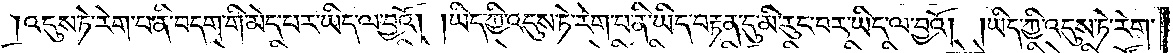འདུས་ཏེ་རེག་པ་ནི་བདག་གི་མེད་པར་ཡིད་ལ་བྱའོ། །ཡིད་ཀྱི་འདུས་ཏེ་རེག་པ་ནི་ཡིད་བརྟན་དུ་མི་རུང་བར་ཡིད་ལ་བྱའོ། །ཡིད་ཀྱི་འདུས་ཏེ་རེག་པ་
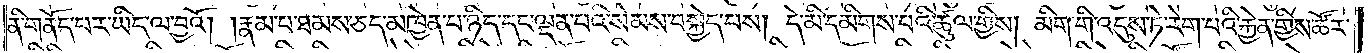ནི་གནོད་པར་ཡིད་ལ་བྱའོ། །རྣམ་པ་ཐམས་ཅད་མཁྱེན་པ་ཉིད་དང་ལྡན་པའི་སེམས་བསྐྱེད་པས། དེ་མི་དམིགས་པའི་ཚུལ་གྱིས། མིག་གི་འདུས་ཏེ་རེག་པའི་རྐྱེན་གྱིས་ཚོར་
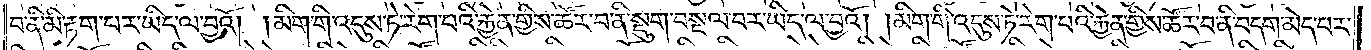བ་ནི་མི་རྟག་པར་ཡིད་ལ་བྱའོ། །མིག་གི་འདུས་ཏེ་རེག་པའི་རྐྱེན་གྱིས་ཚོར་བ་ནི་སྡུག་བསྔལ་བར་ཡིད་ལ་བྱའོ། །མིག་གི་འདུས་ཏེ་རེག་པའི་རྐྱེན་གྱིས་ཚོར་བ་ནི་བདག་མེད་པར་
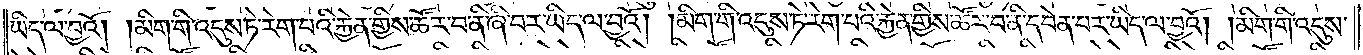ཡིད་ལ་བྱའོ། །མིག་གི་འདུས་ཏེ་རེག་པའི་རྐྱེན་གྱིས་ཚོར་བ་ནི་ཞི་བར་ཡིད་ལ་བྱའོ། །མིག་གི་འདུས་ཏེ་རེག་པའི་རྐྱེན་གྱིས་ཚོར་བ་ནི་དབེན་པར་ཡིད་ལ་བྱའོ། །མིག་གི་འདུས་
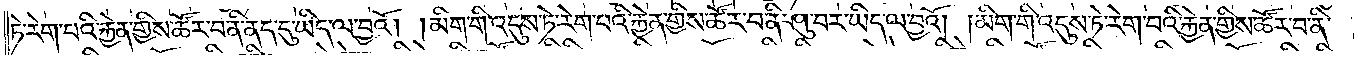ཏེ་རེག་པའི་རྐྱེན་གྱིས་ཚོར་བ་ནི་ནད་དུ་ཡིད་ལ་བྱའོ། །མིག་གི་འདུས་ཏེ་རེག་པའི་རྐྱེན་གྱིས་ཚོར་བ་ནི་ཤུ་བར་ཡིད་ལ་བྱའོ། །མིག་གི་འདུས་ཏེ་རེག་པའི་རྐྱེན་གྱིས་ཚོར་བ་ནི་
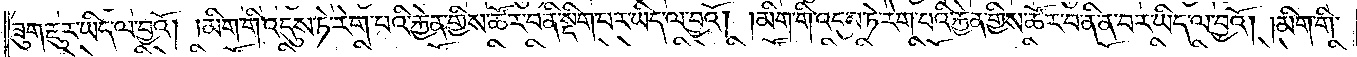ཟུག་རྔུར་ཡིད་ལ་བྱའོ། །མིག་གི་འདུས་ཏེ་རེག་པའི་རྐྱེན་གྱིས་ཚོར་བ་ནི་སྡིག་པར་ཡིད་ལ་བྱའོ། །མིག་གི་འདུས་ཏེ་རེག་པའི་རྐྱེན་གྱིས་ཚོར་བ་ནི་ན་བར་ཡིད་ལ་བྱའོ། །མིག་གི་
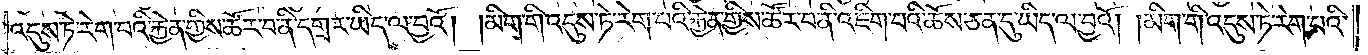འདུས་ཏེ་རེག་པའི་རྐྱེན་གྱིས་ཚོར་བ་ནི་དགྲར་ཡིད་ལ་བྱའོ། །མིག་གི་འདུས་ཏེ་རེག་པའི་རྐྱེན་གྱིས་ཚོར་བ་ནི་འཇིག་པའི་ཆོས་ཅན་དུ་ཡིད་ལ་བྱའོ། །མིག་གི་འདུས་ཏེ་རེག་པའི་
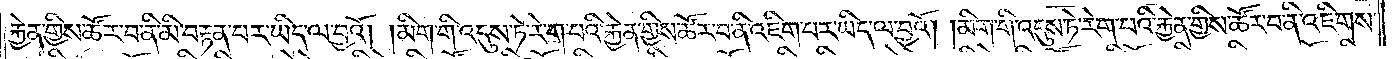རྐྱེན་གྱིས་ཚོར་བ་ནི་མི་བརྟན་པར་ཡིད་ལ་བྱའོ། །མིག་གི་འདུས་ཏེ་རེག་པའི་རྐྱེན་གྱིས་ཚོར་བ་ནི་འཇིག་པར་ཡིད་ལ་བྱའོ། །མིག་གི་འདུས་ཏེ་རེག་པའི་རྐྱེན་གྱིས་ཚོར་བ་ནི་འཇིགས་
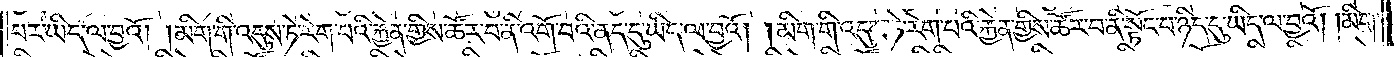པར་ཡིད་ལ་བྱའོ། །མིག་གི་འདུས་ཏེ་རེག་པའི་རྐྱེན་གྱིས་ཚོར་བ་ནི་འགོ་བའི་ནད་དུ་ཡིད་ལ་བྱའོ། །མིག་གི་འདུས་ཏེ་རེག་པའི་རྐྱེན་གྱིས་ཚོར་བ་ནི་སྟོང་པ་ཉིད་དུ་ཡིད་ལ་བྱའོ། །མིག་
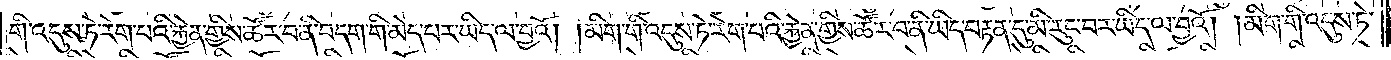གི་འདུས་ཏེ་རེག་པའི་རྐྱེན་གྱིས་ཚོར་བ་ནི་བདག་གི་མེད་པར་ཡིད་ལ་བྱའོ། །མིག་གི་འདུས་ཏེ་རེག་པའི་རྐྱེན་གྱིས་ཚོར་བ་ནི་ཡིད་བརྟན་དུ་མི་རུང་བར་ཡིད་ལ་བྱའོ། །མིག་གི་འདུས་ཏེ་
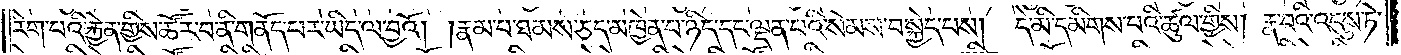རེག་པའི་རྐྱེན་གྱིས་ཚོར་བ་ནི་གནོད་པར་ཡིད་ལ་བྱའོ། །རྣམ་པ་ཐམས་ཅད་མཁྱེན་པ་ཉིད་དང་ལྡན་པའི་སེམས་བསྐྱེད་པས། དེ་མི་དམིགས་པའི་ཚུལ་གྱིས། རྣ་བའི་འདུས་ཏེ་
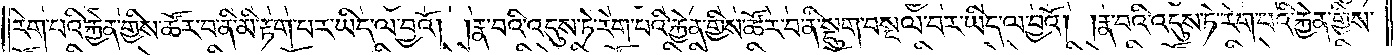རེག་པའི་རྐྱེན་གྱིས་ཚོར་བ་ནི་མི་རྟག་པར་ཡིད་ལ་བྱའོ། །རྣ་བའི་འདུས་ཏེ་རེག་པའི་རྐྱེན་གྱིས་ཚོར་བ་ནི་སྡུག་བསྔལ་བར་ཡིད་ལ་བྱའོ། །རྣ་བའི་འདུས་ཏེ་རེག་པའི་རྐྱེན་གྱིས་
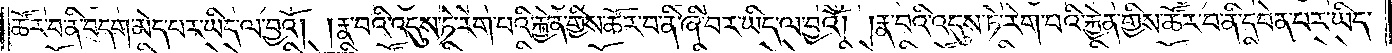ཚོར་བ་ནི་བདག་མེད་པར་ཡིད་ལ་བྱའོ། །རྣ་བའི་འདུས་ཏེ་རེག་པའི་རྐྱེན་གྱིས་ཚོར་བ་ནི་ཞི་བར་ཡིད་ལ་བྱའོ། །རྣ་བའི་འདུས་ཏེ་རེག་པའི་རྐྱེན་གྱིས་ཚོར་བ་ནི་དབེན་པར་ཡིད་
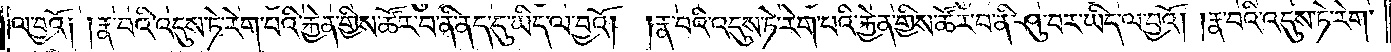ལ་བྱའོ༏ ༏རྣ་བའི་འདུས་ཏེ་རེག་པའི་རྐྱེན་གྱིས་ཚོར་བ་ནི་ནད་དུ་ཡིད་ལ་བྱའོ། །རྣ་བའི་འདུས་ཏེ་རེག་པའི་རྐྱེན་གྱིས་ཚོར་བ་ནི་ཤུ་བར་ཡིད་ལ་བྱའོ། །རྣ་བའི་འདུས་ཏེ་རེག་
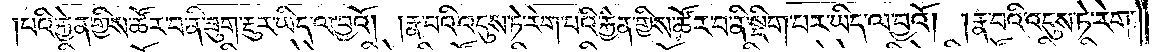པའི་རྐྱེན་གྱིས་ཚོར་བ་ནི་ཟུག་རྔུར་ཡིད་ལ་བྱའོ། །རྣ་བའི་འདུས་ཏེ་རེག་པའི་རྐྱེན་གྱིས་ཚོར་བ་ནི་སྡིག་པར་ཡིད་ལ་བྱའོ། །རྣ་བའི་འདུས་ཏེ་རེག་
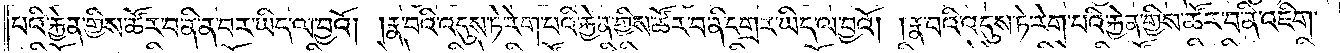པའི་རྐྱེན་གྱིས་ཚོར་བ་ནི་ན་བར་ཡིད་ལ་བྱའོ། །རྣ་བའི་འདུས་ཏེ་རེག་པའི་རྐྱེན་གྱིས་ཚོར་བ་ནི་དགྲར་ཡིད་ལ་བྱའོ། །རྣ་བའི་འདུས་ཏེ་རེག་པའི་རྐྱེན་གྱིས་ཚོར་བ་ནི་འཇིག་
